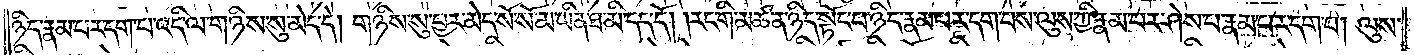ཉིད་རྣམ་པར་དག་པ་འདི་ལ་གཉིས་སུ་མེད་དེ། གཉིས་སུ་བྱར་མེད་སོ་སོ་མ་ཡིན་ཐ་མི་དད་དོ། །རང་གི་མཚན་ཉིད་སྟོང་པ་ཉིད་རྣམ་པར་དག་པས་ལུས་ཀྱི་རྣམ་པར་ཤེས་པ་རྣམ་པར་དག་པ། ལུས་
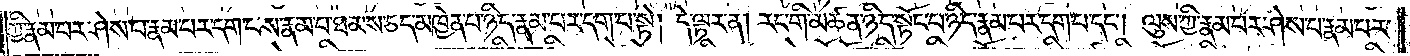ཀྱི་རྣམ་པར་ཤེས་པ་རྣམ་པར་དག་པས་རྣམ་པ་ཐམས་ཅད་མཁྱེན་པ་ཉིད་རྣམ་པར་དག་པ་སྟེ། དེ་ལྟར་ན། རང་གི་མཚན་ཉིད་སྟོང་པ་ཉིད་རྣམ་པར་དག་པ་དང༌། ལུས་ཀྱི་རྣམ་པར་ཤེས་པ་རྣམ་པར་
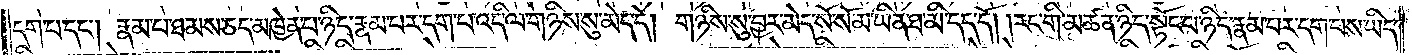དག་པ་དང༌། རྣམ་པ་ཐམས་ཅད་མཁྱེན་པ་ཉིད་རྣམ་པར་དག་པ་འདི་ལ་གཉིས་སུ་མེད་དེ། གཉིས་སུ་བྱར་མེད་སོ་སོ་མ་ཡིན་ཐ་མི་དད་དོ། །རང་གི་མཚན་ཉིད་སྟོང་པ་ཉིད་རྣམ་པར་དག་པས་ཡིད་
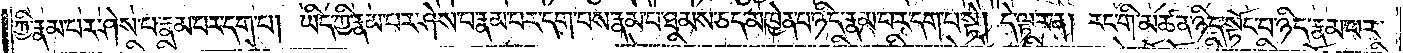ཀྱི་རྣམ་པར་ཤེས་པ་རྣམ་པར་དག་པ། ཡིད་ཀྱི་རྣམ་པར་ཤེས་པ་རྣམ་པར་དག་པས་རྣམ་པ་ཐམས་ཅད་མཁྱེན་པ་ཉིད་རྣམ་པར་དག་པ་སྟེ། དེ་ལྟར་ན། རང་གི་མཚན་ཉིད་སྟོང་པ་ཉིད་རྣམ་པར་
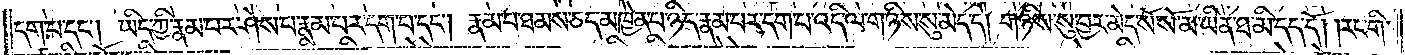དག་པ་དང༌། ཡིད་ཀྱི་རྣམ་པར་ཤེས་པ་རྣམ་པར་དག་པ་དང༌། རྣམ་པ་ཐམས་ཅད་མཁྱེན་པ་ཉིད་རྣམ་པར་དག་པ་འདི་ལ་གཉིས་སུ་མེད་དེ། གཉིས་སུ་བྱར་མེད་སོ་སོ་མ་ཡིན་ཐ་མི་དད་དོ། །རང་གི་
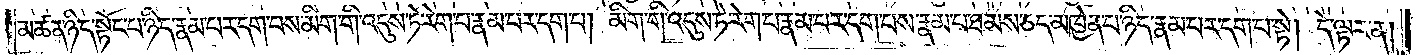མཚན་ཉིད་སྟོང་པ་ཉིད་རྣམ་པར་དག་པས་མིག་གི་འདུས་ཏེ་རེག་པ་རྣམ་པར་དག་པ། མིག་གི་འདུས་ཏེ་རེག་པ་རྣམ་པར་དག་པས་རྣམ་པ་ཐམས་ཅད་མཁྱེན་པ་ཉིད་རྣམ་པར་དག་པ་སྟེ། དེ་ལྟར་ན།
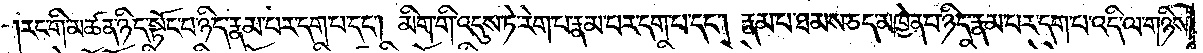རང་གི་མཚན་ཉིད་སྟོང་པ་ཉིད་རྣམ་པར་དག་པ་དང༌། མིག་གི་འདུས་ཏེ་རེག་པ་རྣམ་པར་དག་པ་དང༌། རྣམ་པ་ཐམས་ཅད་མཁྱེན་པ་ཉིད་རྣམ་པར་དག་པ་འདི་ལ་གཉིས་
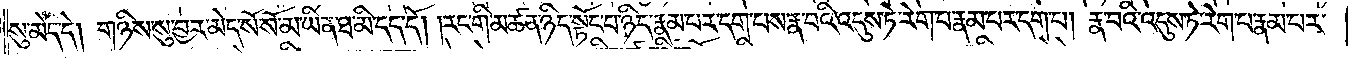སུ་མེད་དེ། གཉིས་སུ་བྱར་མེད་སོ་སོ་མ་ཡིན་ཐ་མི་དད་དོ། །རང་གི་མཚན་ཉིད་སྟོང་པ་ཉིད་རྣམ་པར་དག་པས་རྣ་བའི་འདུས་ཏེ་རེག་པ་རྣམ་པར་དག་པ། རྣ་བའི་འདུས་ཏེ་རེག་པ་རྣམ་པར་
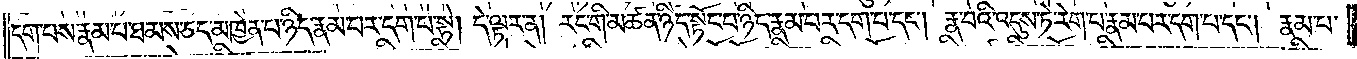དག་པས་རྣམ་པ་ཐམས་ཅད་མཁྱེན་པ་ཉིད་རྣམ་པར་དག་པ་སྟེ། དེ་ལྟར་ན། རང་གི་མཚན་ཉིད་སྟོང་པ་ཉིད་རྣམ་པར་དག་པ་དང༌། རྣ་བའི་འདུས་ཏེ་རེག་པ་རྣམ་པར་དག་པ་དང༌། རྣམ་པ་
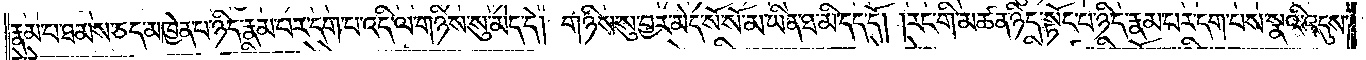རྣམ་པ་ཐམས་ཅད་མཁྱེན་པ་ཉིད་རྣམ་པར་དག་པ་འདི་ལ་གཉིས་སུ་མེད་དེ། གཉིས་སུ་བྱར་མེད་སོ་སོ་མ་ཡིན་ཐ་མི་དད་དོ། །རང་གི་མཚན་ཉིད་སྟོང་པ་ཉིད་རྣམ་པར་དག་པས་སྣའི་འདུས་
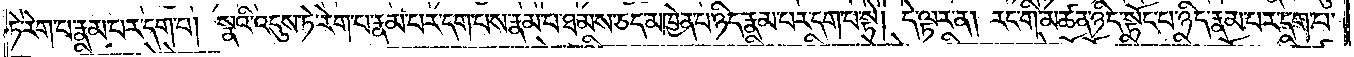ཏེ་རེག་པ་རྣམ་པར་དག་པ། སྣའི་འདུས་ཏེ་རེག་པ་རྣམ་པར་དག་པས་རྣམ་པ་ཐམས་ཅད་མཁྱེན་པ་ཉིད་རྣམ་པར་དག་པ་སྟེ། དེ་ལྟར་ན། རང་གི་མཚན་ཉིད་སྟོང་པ་ཉིད་རྣམ་པར་དག་པ་
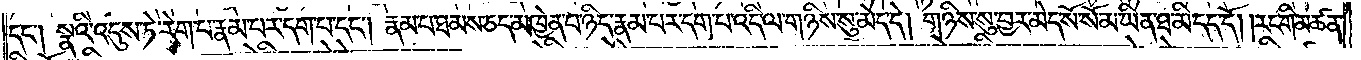དང༌། སྣའི་འདུས་ཏེ་རེག་པ་རྣམ་པར་དག་པ་དང༌། རྣམ་པ་ཐམས་ཅད་མཁྱེན་པ་ཉིད་རྣམ་པར་དག་པ་འདི་ལ་གཉིས་སུ་མེད་དེ། གཉིས་སུ་བྱར་མེད་སོ་སོ་མ་ཡིན་ཐ་མི་དད་དོ། །རང་གི་མཚན་
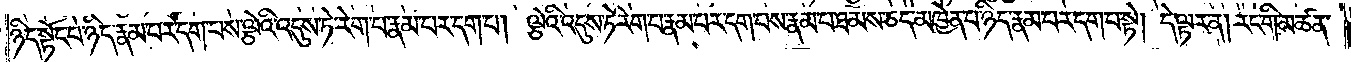ཉིད་སྟོང་པ་ཉིད་རྣམ་པར་དག་པས་ལྕེའི་འདུས་ཏེ་རེག་པ་རྣམ་པར་དག་པ། ལྕེའི་འདུས་ཏེ་རེག་པ་རྣམ་པར་དག་པས་རྣམ་པ་ཐམས་ཅད་མཁྱེན་པ་ཉིད་རྣམ་པར་དག་པ་སྟེ། དེ་ལྟར་ན། རང་གི་མཚན་
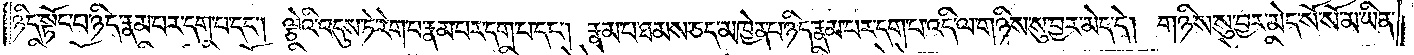ཉིད་སྟོང་པ་ཉིད་རྣམ་པར་དག་པ་དང༌། ལྕེའི་འདུས་ཏེ་རེག་པ་རྣམ་པར་དག་པ་དང༌། རྣམ་པ་ཐམས་ཅད་མཁྱེན་པ་ཉིད་རྣམ་པར་དག་པ་འདི་ལ་གཉིས་སུ་མེད་དེ། གཉིས་སུ་བྱར་མེད་སོ་སོ་མ་ཡིན་
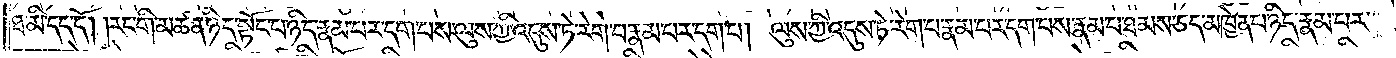ཐ་མི་དད་དོ། །རང་གི་མཚན་ཉིད་སྟོང་པ་ཉིད་རྣམ་པར་དག་པས་ལུས་ཀྱི་འདུས་ཏེ་རེག་པ་རྣམ་པར་དག་པ། ལུས་ཀྱི་འདུས་ཏེ་རེག་པ་རྣམ་པར་དག་པས་རྣམ་པ་ཐམས་ཅད་མཁྱེན་པ་ཉིད་རྣམ་པར་
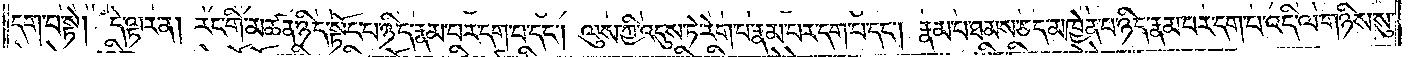དག་པ་སྟེ། དེ་ལྟར་ན། རང་གི་མཚན་ཉིད་སྟོང་པ་ཉིད་རྣམ་པར་དག་པ་དང༌། ལུས་ཀྱི་འདུས་ཏེ་རེག་པ་རྣམ་པར་དག་པ་དང༌། རྣམ་པ་ཐམས་ཅད་མཁྱེན་པ་ཉིད་རྣམ་པར་དག་པ་འདི་ལ་གཉིས་སུ་
